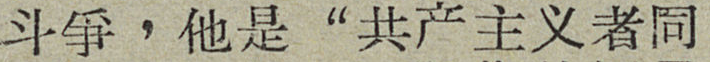斗爭，他是“共产主义者同
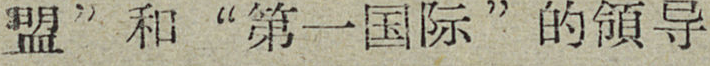盟”和“第一国际”的領导
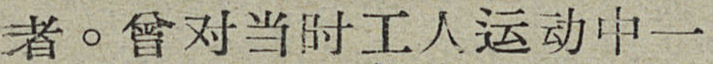者。曾对当时工人运动中一
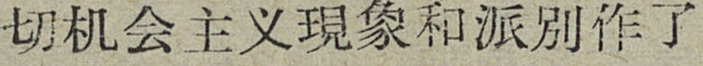切机会主义現象和派别作了
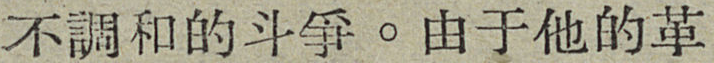不調和的斗爭。由于他的革
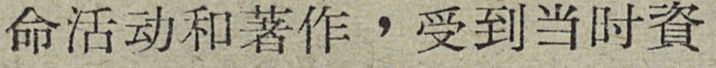命活动和著作，收到当时資
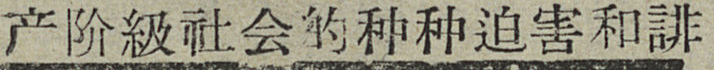产阶級社会的种种迫害和誹
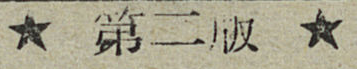★ 第二版 ★
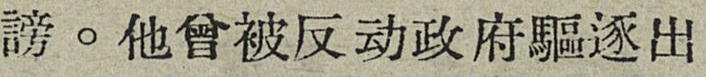謗。他曾被反动政府驅逐出
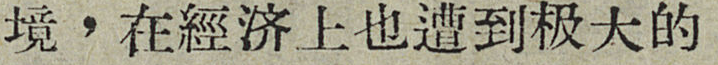境，在經济上也遭到极大的
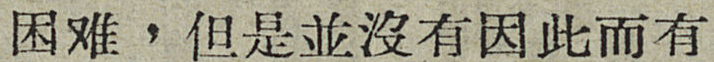困难，但是並沒有因此而有
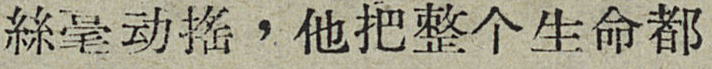絲毫动搖，他把整个生命都
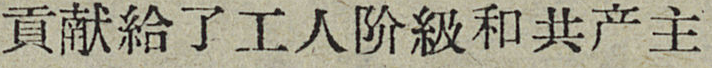貢献給了工人阶級和共产主
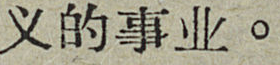义的事业。
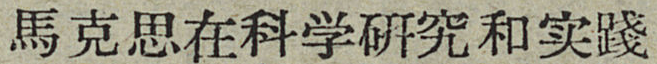馬克思在科学研究和实踐
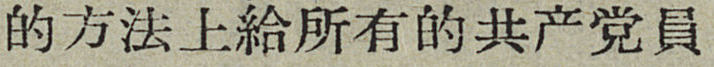的方法上給所有的共产党員
